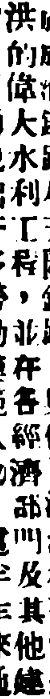洪的偉大水利工程，並在各經濟部們及其他建
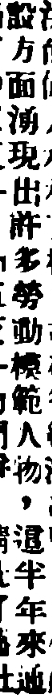設方面湧現出許多勞動模範人物，這半年來通
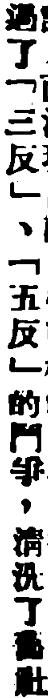過了「三反」、「五反」的鬥爭，清洗了舊社
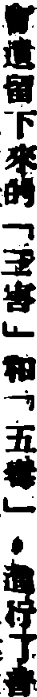會遺留下來的「三害」和「五毒」，進行了普
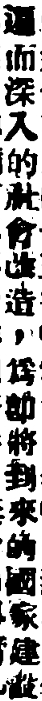遍而深入的社會改造，爲卽將到來的國家建設
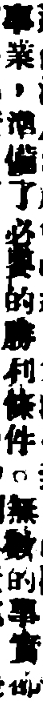事業，準備了必要的勝利條件。無數的事實都
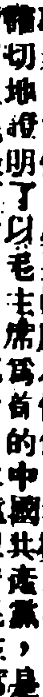確切地證明了以毛主席爲首的中國共產黨，是
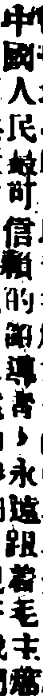中國人民最可信賴的領導者，永遠跟着毛主席
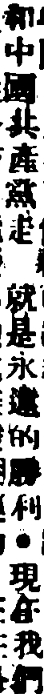和中國共產黨走，就是永遠的勝利。現在我們
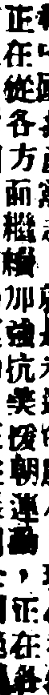正在從各方面繼續加強抗美援朝運動，正在各
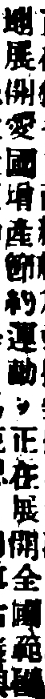地展開愛國增產節約運動，正在展開全國範圍
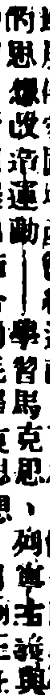的思想改造運動——學習馬克思、列寧主義與
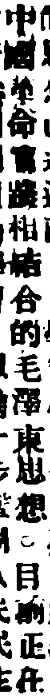中國革命實踐相結合的毛澤東思想。目前正在
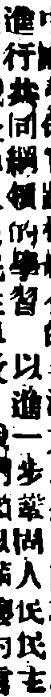進行共同綱領的學習，以進一步鞏固人民民主
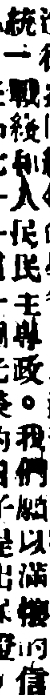統一戰綫和人民民主專政。我們願以滿懷的信
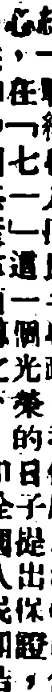心，在「七一」這一個光榮的日子提出保證，
